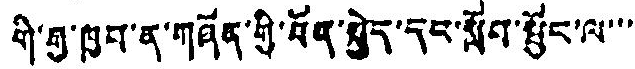གི་རྒྱ་ཁྱབ་ན་གཞོན་གྱི་ཐོན་སྐྱེད་དང་སློབ་སྦྱོང་ལ་་་
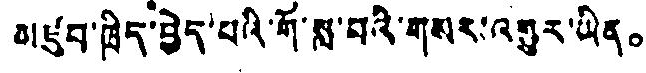མཛུབ་ཁྲིད་བྱེད་པའི་གོ་སླ་བའི་གསར་འགྱུར་ཡིན。
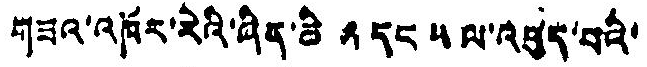གཟའ་འཁོར་རེའི་ཞིན་ཆི ༢ དང ༥ ལ་འཕུད་པའི་
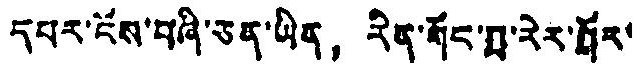དཔར་ངོས་བཞི་ཅན་ཡིན， རིན་གོང་ཟླ་རེར་སྒོར་
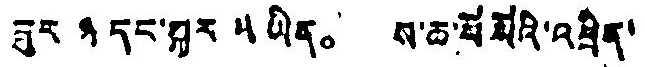ཟུར ༢ དང་སྐར ༥ ཡིན。 ས་ཆ་སོ སོའི་འཕྲིན་
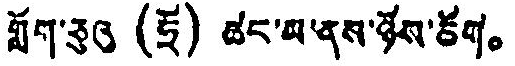གློག་ཅུའུ (ཧྲོ) ཚང་མ་ནས་ཉོས་ཚོག。
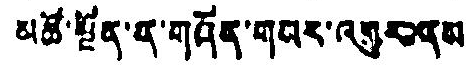མཚོ་སྔོན་ན་གཞོན་གསར་འགྱུར་ནས
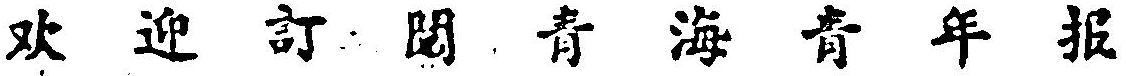欢 迎 訂 閱 青 海 青 年 报
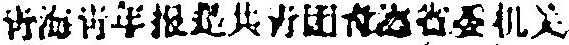靑海靑年报是共靑团靑海省委机关
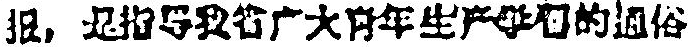报，是指导我省广大靑年生产  的通俗
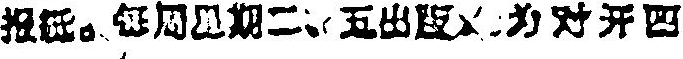报紙。每周星期二、五出版，为对开四
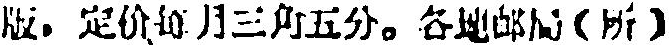版，定价每月三角五分。各地邮局（所）
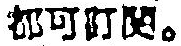都可訂閱。
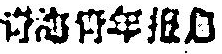靑海靑年报
